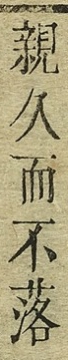親久而不落
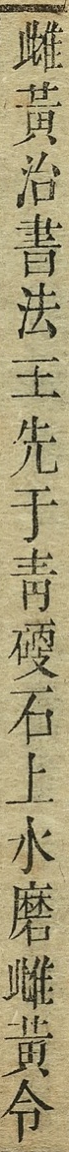雌黃治書法王先于青硬石上水磨雌黃令
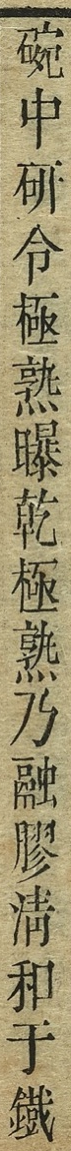碗中研令極熟曝乾極熟乃融膠清和于鐵
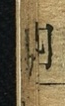四
